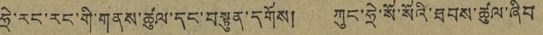ཧྲེ་རང་རང་གི་གནས་ཚུལ་དང་བསྟུན་དགོས། ཀུང་ཧྲེ་སོ་སོའི་ཐབས་ཚུལ་ཞིབ
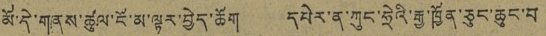མོ་དེ་གནས་ཚུལ་ངོ་མ་ལྟར་བྱེད་ཆོག དཔེར་ན་ཀུང་ཧྲེའི་རྒྱ་ཁྱོན་ཅུང་ཆུང་བ
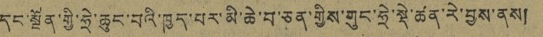དང་སྔོན་གྱི་ཧྲེ་ཆུང་བའི་ཁྱད་པར་མི་ཆེ་བ་ཅན་གྱིས་གུང་ཧྲེ་སྡེ་ཚན་རེ་བྱས་ནས།
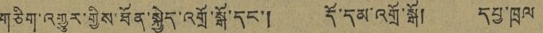གཅིག་འགྱུར་གྱིས་ཐོན་སྐྱེད་འགྲོ་སྒོ་དང་། དོ་དམ་འགྲོ་སྒོ། དཔྱ་ཁྲལ
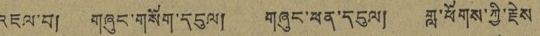འཇལ་བ། གཞུང་གསོག་དངུལ། གཞུང་ཕན་དངུལ། གླ་ཕོགས་ཀྱི་རྗེས
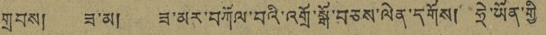གྲབས། ཟ་མ། ཟ་མར་བཀོལ་བའི་འགྲོ་སྒོ་བཅས་ལེན་དགོས། ཧྲེ་ཡོན་གྱི
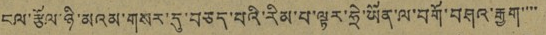ངལ་རྩོལ་ཉི་མའམ་གསར་དུ་བཅད་པའི་རིམ་པ་ལྟར་ཧྲེ་ཡོན་ལ་བགོ་བཤའ་རྒྱག་་་་
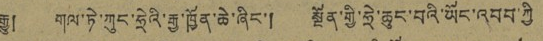རྒྱུ། གལ་ཏེ་ཀུང་ཧྲེའི་རྒྱ་ཁྱོན་ཆེ་ཞིང་། སྔོན་གྱི་ཧྲེ་ཆུང་བའི་ཡོང་འབབ་ཀྱི
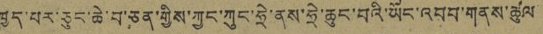ཁྱད་པར་ཅུང་ཆེ་བ་ཅན་གྱིས་ཀྱང་ཀུང་ཧྲེ་ནས་ཧྲེ་ཆུང་བའི་ཡོང་འབབ་གནས་ཚུལ
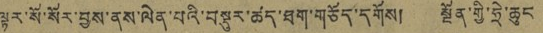ལྟར་སོ་སོར་བྱས་ནས་ལེན་པའི་བསྡུར་ཚད་ཐག་གཅོད་དགོས། སྔོན་གྱི་ཧྲེ་ཆུང
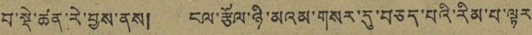བ་སྡེ་ཚན་རེ་བྱས་ནས། ངལ་རྩོལ་ཉི་མའམ་གསར་དུ་བཅད་པའི་རིམ་པ་ལྟར་
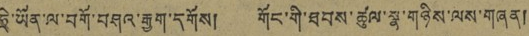ཧྲེ་ཡོན་ལ་བགོ་བཤའ་རྒྱག་དགོས། གོང་གི་ཐབས་ཚུལ་སྣ་གཉིས་ལས་གཞན།
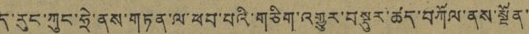ད་རུང་ཀུང་ཧྲེ་ནས་གཏན་ལ་ཕབ་པའི་གཅིག་འགྱུར་བསྡུར་ཚད་བཀོལ་ནས་སྔོན་་
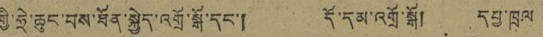གྱི་ཧྲེ་ཆུང་བས་ཐོན་སྐྱེད་འགྲོ་སྒོ་དང་། དོ་དམ་འགྲོ་སྒོ། དཔྱ་ཁྲལ
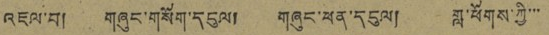འཇལ་བ། གཞུང་གསོག་དངུལ། གཞུང་ཕན་དངུལ། གླ་ཕོགས་ཀྱི་་་
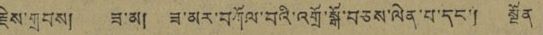རྗེས་གྲབས། ཟ་མ། ཟ་མར་བཀོལ་བའི་འགྲོ་སྒོ་བཅས་ལེན་པ་དང་། སྔོན
